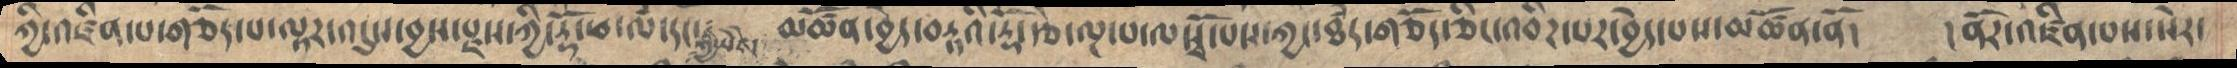ཀྱི་འཛིན་པ་གཅོད་པ་ལྟར་འདུས་བྱས་རྫས་ཀྱི་རྡོ་ཕ་ལཾ་་དང་༴  མཚོན་བྱེད་བརྡའི་རྡོེ་རྩེ་ལྔ་པ་ལསྭོ་པས་ཀྱང་ཐཾད་གཅོད་ཅིང་འབིཌ་པར་བྱེད་པས་མཚོན་ནོ།  །ནོར་འཛིན་པས་སེར་
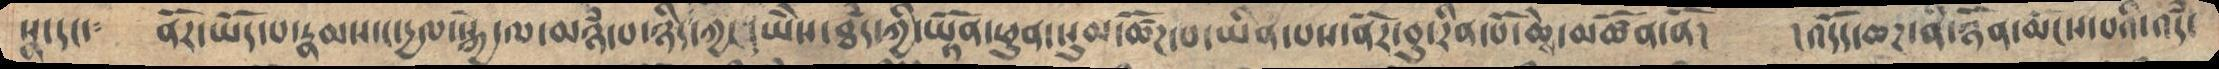སྣ་དང་༴  ནོར་ཡོད་པ་རྣམས་ང་དྱལ་སྐྱེ་ལ་མཉཾ་པ་ཉིད་ཀྱང་ཡཻས་ཐཾད་ཀྱི་ཡྟོན་ཕུན་སུམ་ཚོཌ་པ་ཡིན་པས་ནོར་བུ་རིན་པོ་ཆེས་མཚོན་ནོ།  །འདོད་ཆཌ་ནི་ཉོན་མོངས་པའི་འདི་
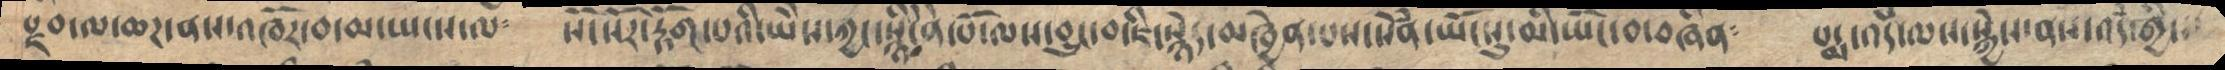རྫབ་ལ་ཆཌ་ནས་འཁོར་བ་མ་སྤངས་ལ༴     སོ་སོར་རྟོག་པའི་ཡཻས་ཀྱང་སྙིངེནེ་པོ་ལས་བྱུང་བ་ཇི་སྙེད་མཁྱེན་པས་སེཾན་ཡོངསུ་མི་ཡོང་བ་བཞིན༴   པདྨ་འདཾ་ལས་སྐྱེས་ནས་འདཾ་གྱི་
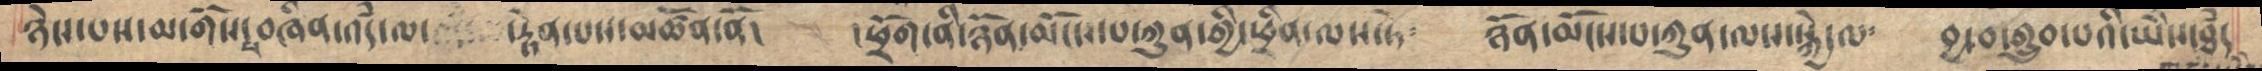ཉེས་པས་མ་གོས་པ་བཞིན་འདི་ལ་   རྟེན་པས་མཚོན་ནོ།   །ཕྲོག་ནི་ཉོན་མོངས་པ་ཀུན་གྱི་ཕྲིན་ལས་ཏེ༴  ཉོན་མོངས་པ་ཀུན་ལས་སྐྱེ་ལ༴  བྱ་བ་གྲུབ་པའི་ཡཻས་ཐཾད་
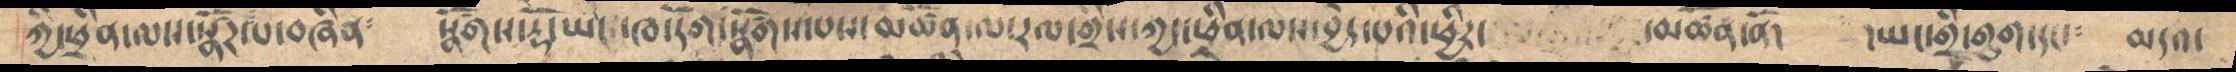ཀྱི་ཕྲིན་ལས་སྣཚོཌ་པ་བཞིན༴      སྣཚོགས་རྡོེ་ཡང་ཁ་དོག་སྣཚོགས་པས་མཚོན་ལ་རལ་གྲིས་ཀྱང་ཕྲིན་ལས་བྱེད་པའི་ཕྱིར་   མཚོན་ནོ།   །ཡང་གྲི་གུག་དང་༴   མདའ་
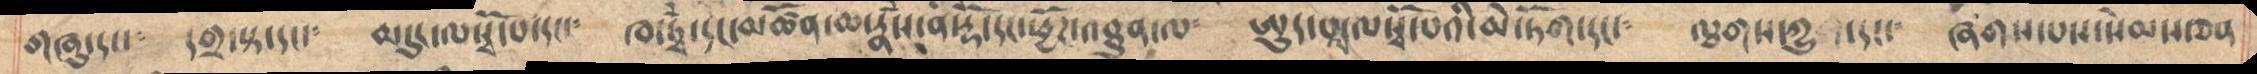གཞུ་དང་༴  དགྲ་སྟ་དང་༴  མདུང་ལསྭོ་པ་དང་༴  ཁ་ཏྭཾ་དང་མཚོན་ཆ་རྣཾས་ནི་རྡོ་དང་ཕྱོཌ་འཐུན་ལ༴  ཨུད་པལ་ལསྭོ་པའི་མེ་ཏོག་དང་༴   ལྕགས་ཀྱུ་དང་༴  ཞགས་པས་སེམས་ཅན་
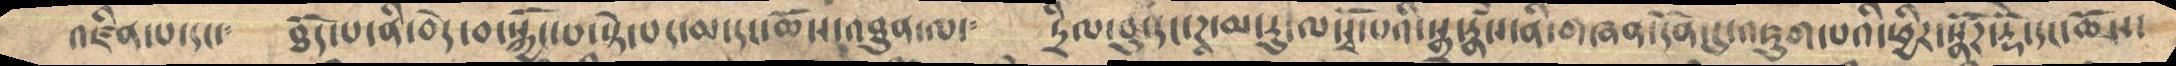འཛིན་པ་དང་༴    ཐོད་པ་ནི་བདེ་བ་སྐྱོང་པ་སྟེ་པད་མ་དང་ཆོས་འཐུན་ལ་༴    དྲིལ་བུ་དང་ཌཱ་མ་རུ་ལསྭོ་པའི་སྒྲ་རྣཾས་ནི་གཞན་དོན་དུ་འཇུག་པའི་ཕྱིར་སྣཚོཌ་རྡོེ་དང་ཆོས་
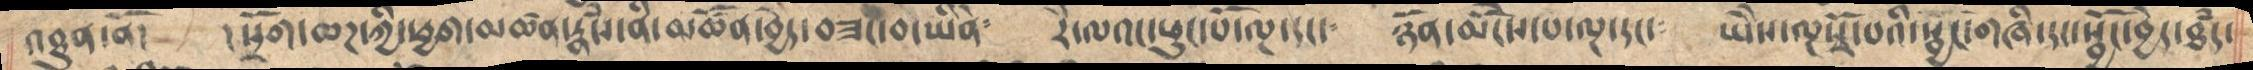འཐུན་ནོ།    །སྲོག་ཆཌ་ཀྱི་ཕྱག་མཚན་རྣཾས་ནི་མཚོན་བྱེད་བཟང་བ་ཡིནེ༴    རཻ་ལའང་ཕུང་པོ་ལྔ་དང་༴     ཉོན་མོངས་པ་ལྔ་དང་༴    ཡཻས་ལྔསྭོ་པའི་སྦྱང་གཞི་དང་སྦྱོང་བྱེད་ཐཾད་
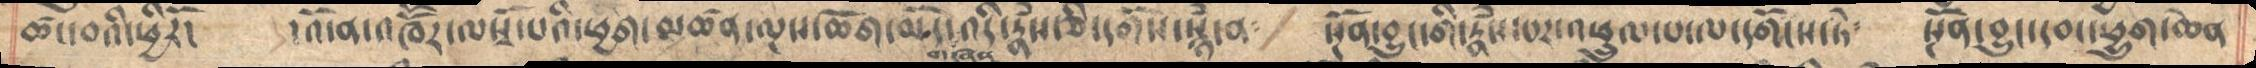ཚང་བའི་ཕྱིརོ།  །འོ་ན་འཁཽར་ལསྭོ་པའི་ཕྱག་མཚན་ལྔས་ཆོག་མོད་གཞན་འདི་རྣཾས་ཅི་དགོས་སྙཾ་ན༴  སྔོན་བྱུང་གི་རྣཾས་པར་འཕྲུལ་པ་ལ་དགོངས་ཏེ༴   སྔོན་བྱུང་དབང་ཕྱུག་ཆེན་
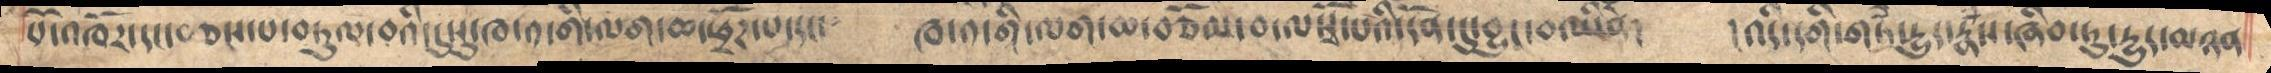པོ་འཁོར་དང་བཅས་པ་བཏུལ་བའི་དུསུ་ཁ་༡་གི་ལག་ཆ་ཕྲོཌ་པ་དང་༴   ཁ་༡་གི་ལག་ཆ་བཅོམ་བ་ལསྭོ་པའི་དོན་དུ་བྱུང་བ་ཡིནེ།     །འདི་དགི་གཏཾ་དྱུད་རྣཾས་ཞིབ་ཏུ་དྱུད་མཉན
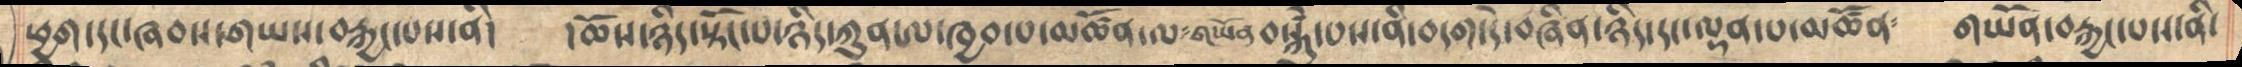ཕྱག་དང་ཞབས་གཡས་བརྐྱང་པས་ནི།     །ཆོས་ཉིད་སྟོང་པ་ཉིད་ཀུན་ལ་ཁྱབ་པ་མཚོན་ལ་གཡོན་བསྐུཾ་པས་ནི་བདག་དེ་བཞིན་ཉིད་དང་ལྡན་པ་མཚོན༴    གཡོན་བརྐྱང་པས་ནི་
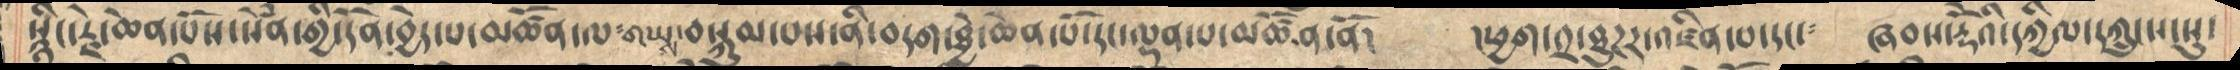སྙིང་རྗེ་ཆེན་པོས་སེཾན་གྱི་དོན་བྱེད་པ་མཚོན་ལ་གཡས་བསྐུམ་པས་ནི་བདག་ཐྱེ་ཆེན་པོ་དང་ལྡན་པ་མཚོན་ནོ།  །ཕྱག་༢་ཐུཌར་འཛིན་པ་དང་༴  ཞབས་རྡོེའི་དཀྱིལ་དཀྲུངས་སུ་
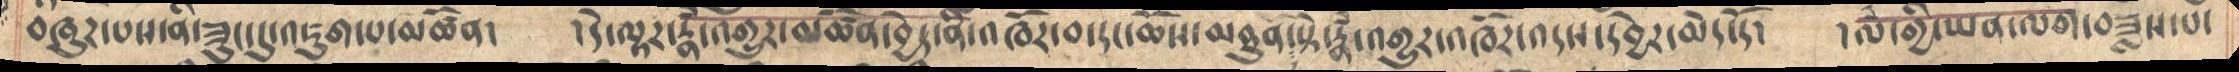བཞུཌ་པས་ནི་ཟུང་དུ་འཇུག་པ་མཚོན།      །དེ་ལྟར་རྣཾ་འགྱུར་མཚོན་བྱེད་ནི་འཁོར་བ་དང་ཆོས་མཐུན་སྟེ་རྣཾ་འགྱུར་འཁོར་འདས་དབྱེར་མེད་དོ།      །ལཾ་གྱི་ཡན་ལག་བཟླས་པ་
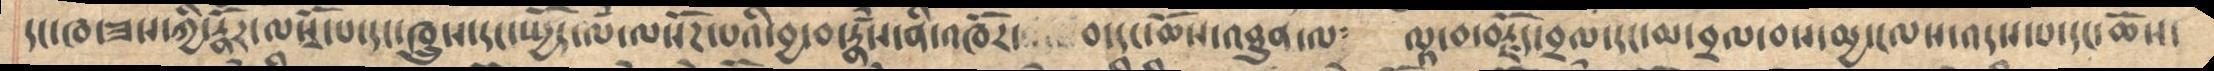དང་ཁ་ཟས་ཀྱི་རྣོར་ལསྭོ་པ་དང་ཁྲུས་དང་སྤྱོད་ལྃ་ལསོཌ་པའི་བྱ་བ་རྣྃས་ནི་འཁོར་  བ་དང་ཆོས་མཐུན་ལ༴ ལྟ་བ་བརྗོད་བྲལ་དང་མ་བྲལ་བས་མྱ་ངལས་འདས་པ་དང་ཆོས་
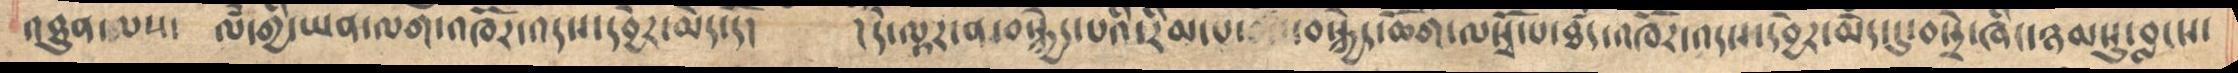འཐུན་ལས་   ལཾ་གྱི་ཡན་ལག་འཁོར་འདས་དབྱེར་མེད་དོ།   །དེ་ལྟར་ན་བསྐྱེད་པའི་རིམ་པ་བསྐྱེད་ཆོག་ལསྭོ་པ་ཐཾད་འཁོར་འདས་དབྱེར་མེད་དུ་བསྲེ་ཞིང་ཉམསུ་བླངས་
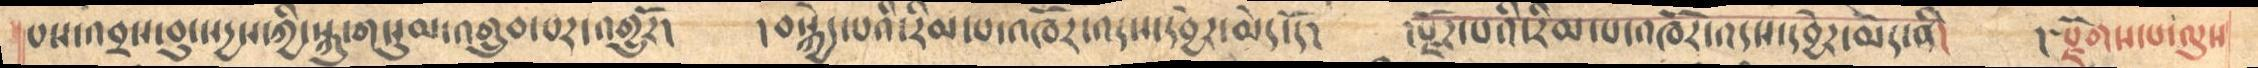པས་འབྲས་བུ་སདྱས་ཀྱི་སྐུ་གསུམ་འགྲུབ་པར་འགྱུརོ།   །བསྐྱེད་པའི་རིན་པ་འཁོར་འདས་དབྱེར་མེད་དོ། །སྫོཌ་པའི་རིམ་པ་འཁོར་འདས་དབྱེར་མེད་ནི། །སྫོགས་པ་ལུས
